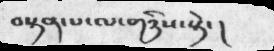བསྟན་པ་གཉིས་སྟེ་།
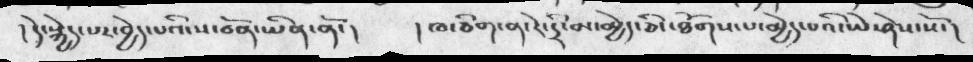།དེ་སྐྱེད་པར་བྱེད་པའི་ས་བོན་ཡིན་ནོ་།   །ཁ་ཅིག་ན་རེ་དྲི་མ་མྱེད་ཅིང་ཐོགས་པ་མྱེད་པའི་ཡེ་ཤེས་སོ་།
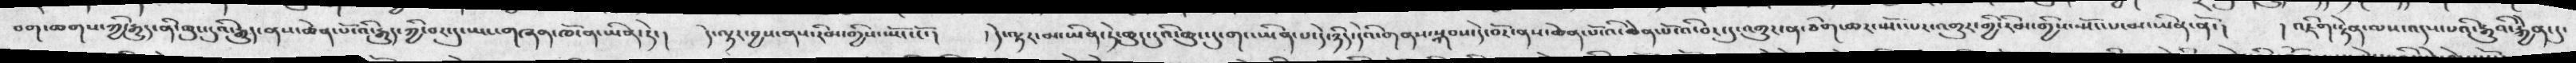བག་ཆགས་ཀྱི་རྒྱུད་ནི་ཆུང་ངུའི་རྒྱུད་ནས་ཆེན་པོའི་རྒྱུད་ཀྱི་བར་དུ་ཡང་གཞན་ཁོ་ན་ཡིན་ཏེ་།  དེ་ལྟར་བྱས་ནས་རིམ་གྱིས་སྤོང་ངོ་།  །དེ་ལྟར་མ་ཡིན་ཏེ་ཆུང་ངུའི་ཆུང་ངུ་གང་ཡིན་པ་དེ་ཉིད་དེའི་གནས་སྐབས་དེ་བོར་ནས་ཆེན་པོའི་ཆེན་པོ་འི་བར་དུ་འགྱུར་ན་ཅིག་ཆར་སྤོང་པར་འགྱུར་གྱི་རིམ་གྱིས་སྤོང་པ་མ་ཡིན་ནོ་།   །འཇིག་རྟེན་ལས་འདས་པའི་རྒྱུའི་རྐྱེན་དུ་
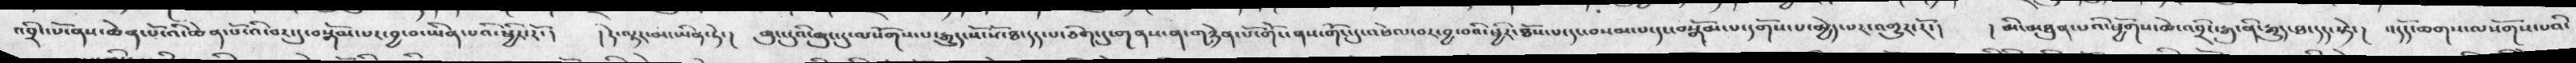འབྲིང་པོ་ནས་ཆེན་པོ་འི་བར་དུ་བསྒོམ་པར་བྱ་བ་ཡིན་པའི་ཕྱིར་རོ་།   །དེ་ལྟར་མ་ཡིན་ཏེ་།  ཆུང་ངུའི་ཆུང་ངུ་ལསོགས་པ་རྒྱུད་སོ་སོ་ཐ་དད་པ་ཅིག་དུ་གནས་ན་གཉེན་པོ་གོང་ནས་གོང་དུ་འཕེལ་བར་བྱ་བའི་ཕྱིར་ཐོས་པ་དང་བསམ་པ་དང་བསྒོམ་པ་དགོས་པ་མྱེད་པར་འགྱུར་རོ་།  །མི་མཐུན་པའི་ཕྱོགས་ཆེ་འབྲིང་རྒུ་ནི་རྒྱུད་ཐ་དད་སྟེ་།  འདོད་ཆགས་ལསོགས་པའི་
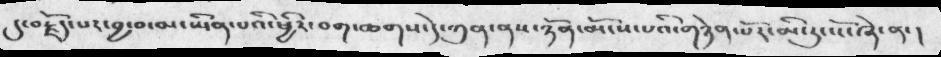དུ་བརྗོད་པར་བྱ་བ་མ་ཡིན་པའི་ཕྱིར་བག་ཆགས་དེ་ཀུན་ནས་ཉོན་མོངས་པའི་གཉེན་པོར་མི་རུང་ངོ་ཞེ་ན་།
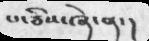པ་ཅིས་ཞེ་ན་།
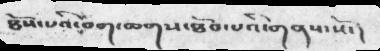ཐོས་པའི་བག་ཆགས་ཐོབ་པའི་གནས་སོ་།
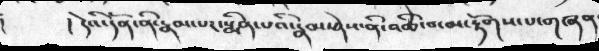། དེའི་དོན་ནི་རྣམ་པར་སྨིན་པའི་རྣམ་ཤེས་ནི་འཆི་བ་མ་རྟོགས་པ་གཞན་
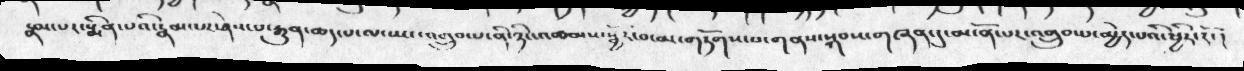རྣམ་པར་སྨིན་པའི་རྣམ་པར་ཤེས་པ་རྒྱུན་ཆད་པ་ལ་ཡང་འགྲུབ་པ་ནི་ཉིང་འཚམས་སྦྱོར་བ་མ་གཏོགས་པ་གནས་སྐབས་གཞན་དུ་མངོན་པར་འགྲུབ་པ་མྱེད་པའི་ཕྱིར་རོ་།
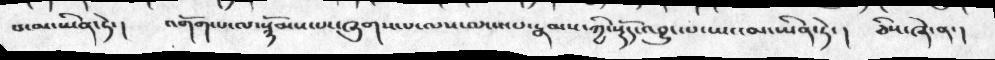པ་མ་ཡིན་ཏེ་།   འགོག་པ་ལ་སྙོམས་པར་ཞུགས་པ་ལས་ལངས་པ་རྣམས་ཀྱི་སྡོད་འབྱུང་པ་ཡང་མ་ཡིན་ཏེ་།   ཅིས་ཞེ་ན་།
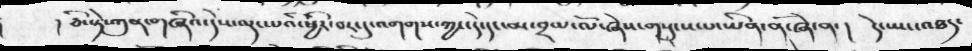། ཅི་སྟེ་ཀུན་གཞིའ་དེས་ལྡང་པའི་ཕྱིར་བར་དུ་འགགས་ཀྱང་དེ་དང་མ་བྲལ་ལོ་ཞེས་གསུངས་པ་ཡིན་ནོ་ཞེ་ན་།   དེ་ངཡ་འཐད་
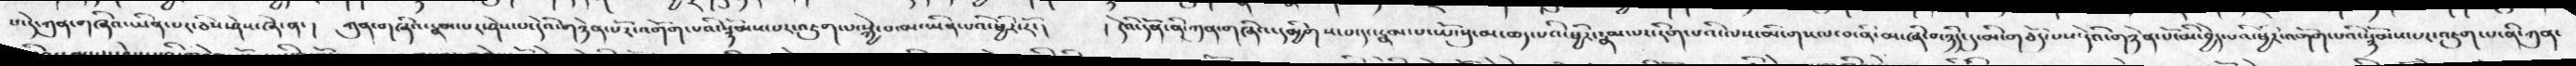པ་དེ་ཀུན་གཞིའ་ཡིན་པར་ཅིས་ཤེས་ཞེ་ན་།  ཀུན་གཞིའ་རྣམ་པར་ཤེས་པ་དེའི་གཉེན་པོར་འགོག་པའི་སྙོམས་པར་འཇུག་པ་སྐྱེ་བ་མ་ཡིན་པའི་ཕྱིར་རོ་།  ། དེའི་དོན་ནི་ཀུན་གཞིའ་དམྱིགས་པ་དང་རྣམ་པ་ཡོངསུ་མ་ཆད་པའི་ཕྱིར་རྣམ་པར་རིག་པའི་ལས་མི་གསལ་བ་ནི་མ་ཞི་བ་ཉིད་དུ་མི་གཅོད་པས་དེའི་གཉེན་པོ་མི་བྱེད་པའི་ཕྱིར་འགོག་པའི་སྙོམས་པར་འཇུག་པ་ནི་ཀུན་
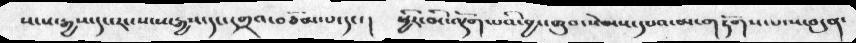སངས་རྒྱས་དང་རང་སངས་རྒྱས་དང་དགྲའ་བཅོམ་པ་དང་།  ཕྱིར་མི་ལྡོག་པའི་བྱང་ཆུབ་སེམས་དཔའ་མ་གཏོགས་པ་ས་བདུན་
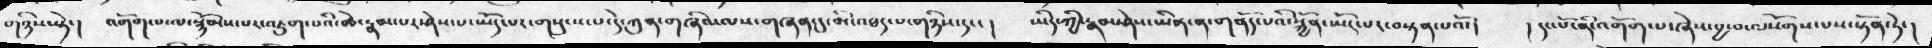གཉིས་སྟེ་།  འགོག་པ་ལ་སྙོམས་པར་འཇུག་པའི་ཚེ་རྣམ་པར་ཤེས་པ་ཡོད་པར་གསུངས་པ་དེ་ཀུན་གཞིའ་ལས་གཞན་དུ་མི་འཐད་པ་གཉིས་དང་།  ཡིད་ཀྱི་རྣམ་ཤེས་ཡིན་ན་གནོད་པའི་སྐྱོན་ཡོད་པར་བསྟན་པའོ་།   །དང་པོ་ནི་འགོག་པ་ཞེས་བྱ་བ་ལསོགས་པས་སྟོན་ཏེ་།
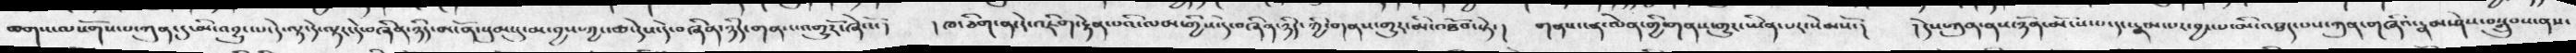ཆགས་ལསོགས་པ་ཀུན་དུ་མི་འབྱུང་པ་དེ་ལྟ་དེ་ལྟར་དེ་བཞིན་ཉིད་མངོན་སུམ་དུ་མ་བྱས་ཀྱང་ཆ་དེས་དེ་བཞིན་ཉིད་གནས་འགྱུརོ་ཞེ་སོ།  ། ཁ་ཅིག་ན་རེ་འཇིག་རྟེན་པའི་ལམ་གྱིས་དེ་བཞིན་ཉིད་ཀྱི་གནས་གྱུར་མི་འཐོབ་སྟེ་།  གནས་ངན་ལེན་གྱི་གནས་གྱུར་ཡིན་པར་སེམསོ་།   ། དེས་ཀུན་ནས་ཉོན་མོངས་པ་དང་རྣམ་པར་བྱང་པ་མི་འཐད་པས་ཀུན་གཞིའ་རྣམ་ཤེས་བསྒྲུབས་ནས་
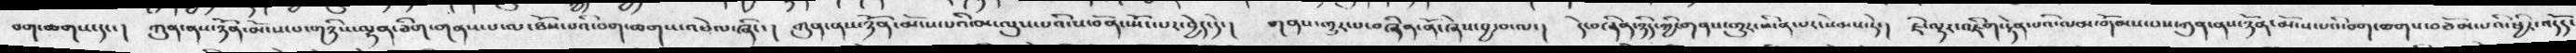བག་ཆགས་དང་།   ཀུན་ནས་ཉོན་མོངས་པ་གཉིས་ལྷན་ཅིག་གནས་པ་ལ་ཐོས་པའི་བག་ཆགས་འཕེལ་ཞིང་།  ཀུན་ནས་ཉོན་མོངས་པའི་མ་ལུས་པའི་ས་བོན་སྤོང་པར་བྱེད་དེ་།   གནས་གྱུར་པ་བཞིན་ནོ་ཞེས་བྱ་བ་ལ་།   དེ་བཞིན་ཉིད་ཀྱི་གནས་གྱུར་ཡིན་པར་སེམས་དེ་།  ཇི་ལྟར་འཇིག་རྟེན་པའི་ལམ་གོམས་པས་ཀུན་ནས་ཉོན་མོངས་པའི་བག་ཆགས་བཅོམ་པའི་ཕྱིར་འདོད་
